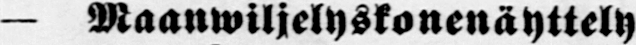— Maanwiljelyskonenäyttely
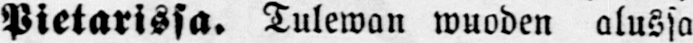pietarissa. Tulewan wuoden alussa
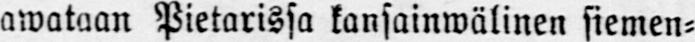awataan Pietarissa kansainwälinen siemen-
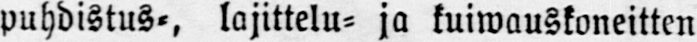puhdistus-, lajittelu- ja kuiwauskoneitten
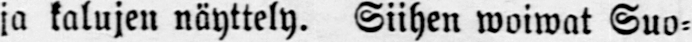ja kalujen näyttely. Siihen woiwat Suo-
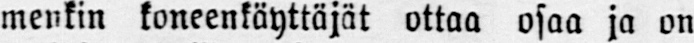menkin koneenkäyttäjät ottaa osaa ja on
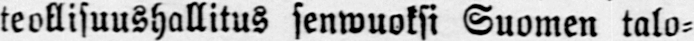teollisuushallitus senwuoksi Suomen talo-
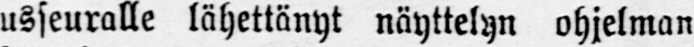usseuralle lähettänyt näyttelyn ohjelman
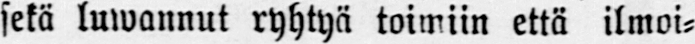sekä luwannut ryhtyä toimiin että ilmoi-
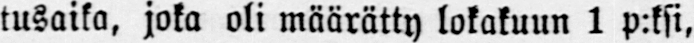tusaika, joka oli määrätty lokakuun 1 p:ksi,
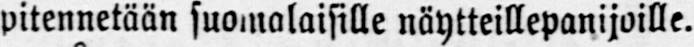pitennetään suomalaisille näytteillepanijoille.
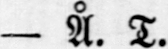— Å. T.
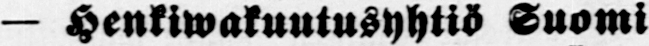— Henkiwakuutusyhtiö Suomi
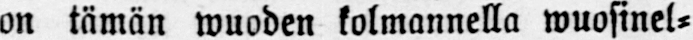on tämän wuoden kolmannella wuosinel-
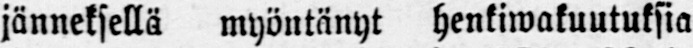jänneksellä myöntänyt henkiwakuutuksia
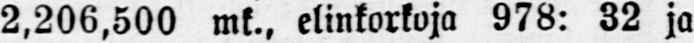2,206,500 mk., elinkorkoja 978: 32 ja
